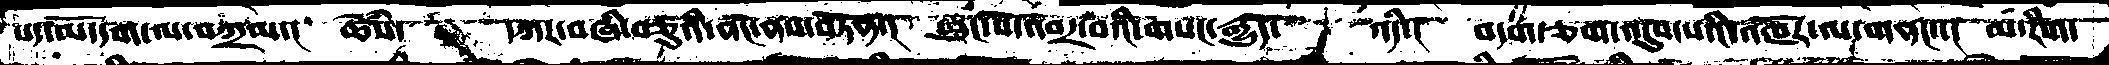པད་མོ་དག་ལ་བཀྲམ་།  ཚེསཾ་   དཀར་བཞི་བཅུའི་ནང་ནས་བཏོན་།  ཕུང་པོ་འབར་བའི་གསང་རྒྱུད་    འདི་།  བདག་ཅག་འདུས་པའི་འཁོར་ལ་གནང་་།  མ་རིག་
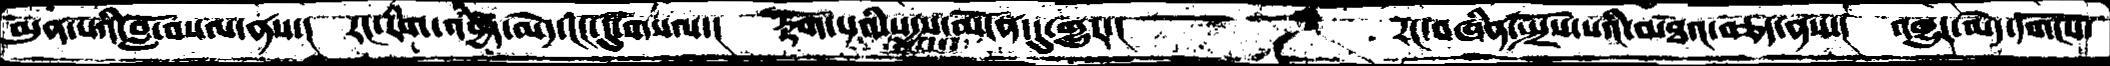མུན་པའི་བློ་བསལ་ནས་།  རང་རིག་དབྱེར་མེད་ངང་དུ་གསལ་།  རྟོག་པའི་སདྱས་མངོན་དུ་གྱུར་།          རང་བཞིན་སྤྲོས་པའི་མཐའ་བཅད་ནས་།  འགྱུར་མེད་དགོངས་
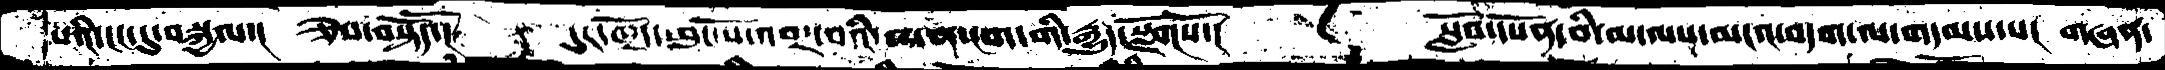པའི་ངང་དུ་བསྐྱལ་།  ཅེས་བསྟོདོ་།    དུར་ཁྲོད་ཕུང་པོ་འབར་བའི་མན་ངག་གི་རྒྱུད་སྫོགསོ་།         སློབ་དཔོན་བི་མ་ལས་མངའ་བདག་ལ་གདམས་པ་།  གཞན་
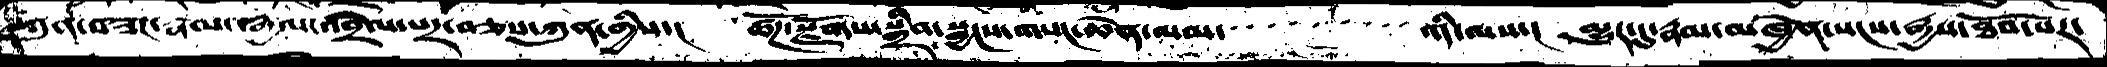ཀུན་བཟང་རྣམ་རྒྱལ་འབྲེལ་པར་བཅས་ཀུན་གྱིས་།  ཚོཌ་སྫོགས་སྒྲིབ་སྦྱངས་གསང་ཆེན་ལམ་             འདི་ལས་།  མྱུར་དུ་རྣམ་མཁྱེན་སངས་རྒྱས་ཐོབ་པར་
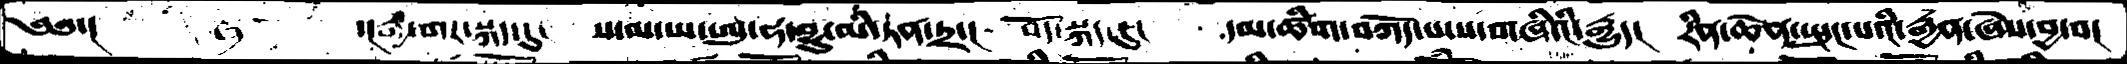༄༅་།      ་།རྒྱ་གར་སྐད་དུ་    ས་མ་ཡ་ཨུ་ཧ་བྷུ་མི་ཏན་ཏྲ་།  བོད་སྐད་དུ།  དམ་ཚིག་བཀོད་པ་ས་གཞིའི་རྒྱུད། རིན་ཆེན་སྤུང་པའི་རྒྱན་ཞེས་བྱ་བ།
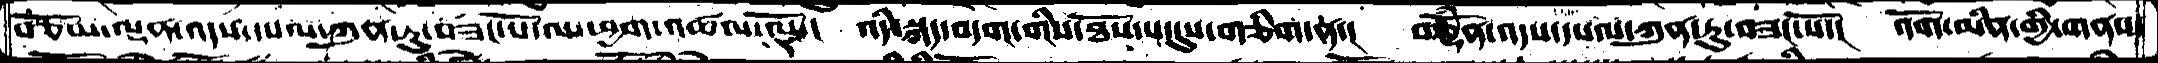བཅོམ་ལྡན་འདས་དཔལ་ཀུན་ཏུ་བཟང་པོ་ལ་ཕྱག་འཚལ་ལོ་།   འདི་སྐད་བདག་གིས་ཐོས་པ་དུས་གཅིག་ན་།  བཅྡོཾན་འདས་དཔལ་ཀུན་ཏུ་བཟང་པོ་།  འོག་མིན་གྱི་གནས་
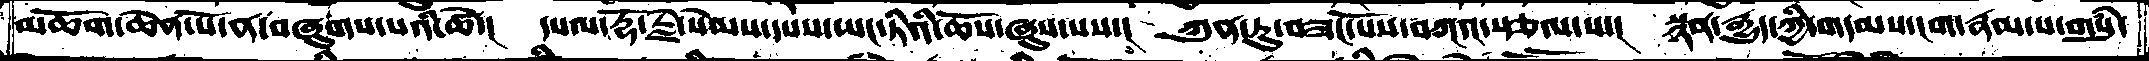མཆོག་ཆེན་པོ་ན་བཞུགས་པའི་ཚེ་།   དཔལ་རྡོ་རྗེ་སེམས་དཔས་ཡང་ཏིའི་ཆོས་ཞུས་པས་།   ཀུན་ཏུ་བཟང་པོས་བཀའ་སྩལ་པ་།   སྙན་རྒྱུད་ཀྱི་གདམས་ངག་རྣམ་པ་གསུཾ་
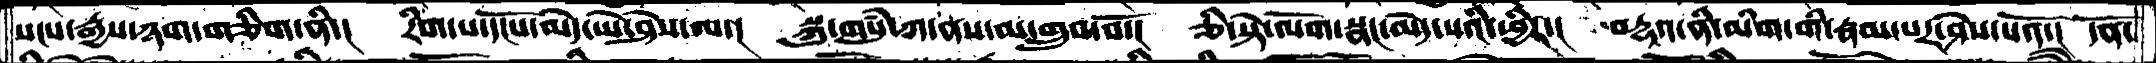སངས་རྒྱས་ཉག་གཅིག་ནི་།  རིག་པ་དངོས་མེད་ཡེ་ཤེས་ལ་།  སྐུ་གསུཾ་ཀ་ནས་མ་གྲུབ་བོ་།  ཅི་སྟེ་ལོག་སྣང་མེད་པའི་ཕྱིར་།  བརྡའ་ནི་མིག་གི་རྣམ་པར་ཤེས་པའོ་།  དོན་
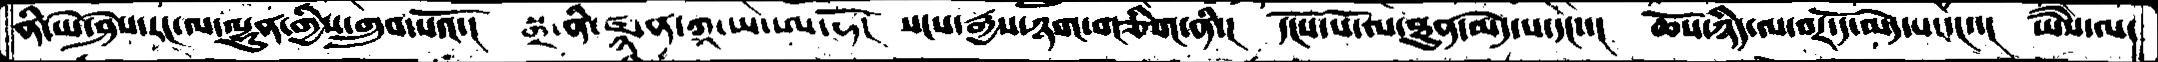ནི་ཡེ་ཤེས་རང་ལ་ལྷུན་གྱིས་གྲུབ་པའོ་།  སྒྲ་ནི་ཛྙཱ་ན་ཀཱ་ཡ་ཨ་ཧོ།  སངས་རྒྱས་ཉག་གཅིག་ནི་།  དངོས་པོ་ལ་ཐུན་མེད་པ་དང་་།  ཆོས་ཉིད་ལ་བར་དོ་མེད་པ་དང་་།  ཡཻས་ལ་
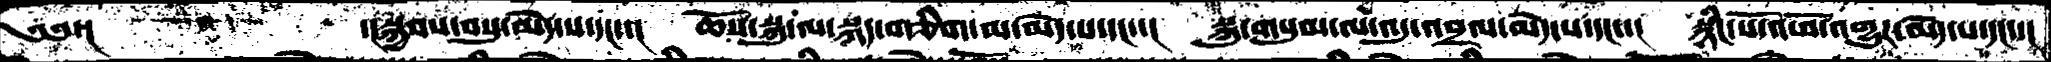༄༅་།     ་།སྐྱབས་བསུ་མེད་པ་དང་་།  ཆོས་སྐུ་ལ་སྐད་གཅིག་མ་མེད་པ་དང་་།  སྐུ་གསུམ་ལ་འདུ་འབྲལ་མེད་པ་དང་་།  སྙིང་པོ་འཕོ་འགྱུར་མེད་པ་དདང་་།
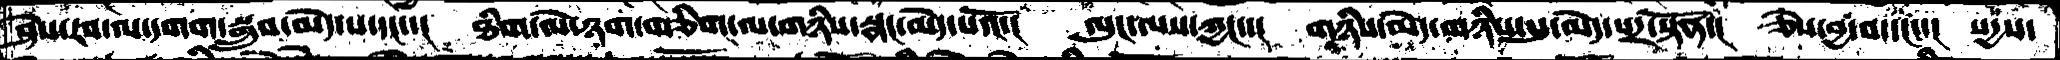ཤེས་རབ་ལ་དགག་སྒྲུབ་མེད་པ་དང་་།  ཐིག་་ལེ་ཉག་གཅིག་ལ་གཉིས་སྣང་མེད་པའོ་།  ལུང་ལས་ཀྱང་་།  གཉིས་མེད་གཉིས་སུ་མེད་པར་སྟོན་།  ཅེས་བྱ་བ་དང་་།  སདྱས་
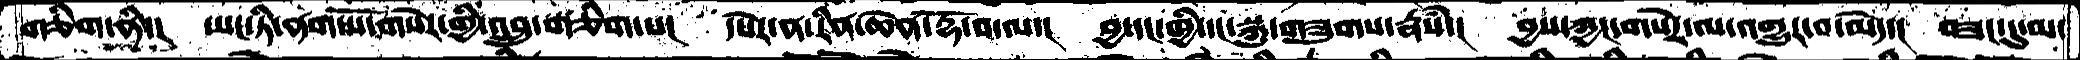གཅིག་ནི་།  ཡང་ཏི་ནག་པོ་གསེར་གྱི་འབྲུ་གཅིག་པ་།  དཔེར་ན་རིན་ཆེན་རྡོ་བ་ལ་།  བྱ་དང་ཁྱི་དང་སྐུ་གཟུགས་རྣཾས་།  བྱས་ཀྱང་གསེར་ལ་འགྱུར་བ་མེད་།  བཟང་དུ་མ་
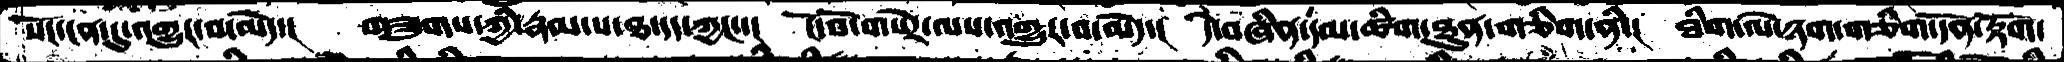སོང་ངན་དུ་འགྱུར་བ་མེད་།  གཟུགས་ཀྱི་རྣམ་པ་ཐ་དད་ཀྱང་་།  ངོ་བོ་གསེར་ལས་འགྱུར་བ་མེད་།  དེ་བཞིན་དམ་ཚིག་ཐུན་གཅིག་ནི་།  ཐིག་ལེ་ཉག་གཅིག་དོན་རྟོག་
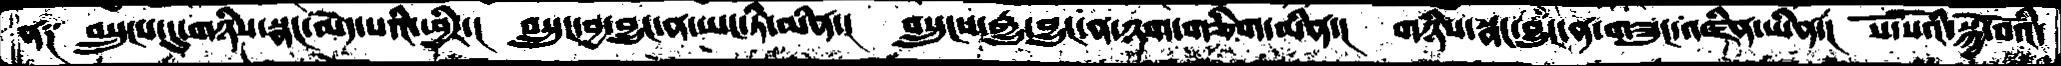ན༑  བསྲུངས་དུ་གཉིས་སྣང་མེད་པའི་ཕྱིར་།  བསྲུང་བྱ་བྱུང་ན་ཡང་ཏི་མིན་།  བསྲུངས་རྒྱུ་བྱུང་ན་ཉག་གཅིག་མིན་།  གཉིས་སྣང་བྱུང་ན་གཟུང་འཛིན་ཡིན་།  སོ་སོའི་སྐྱེ་བོའི་
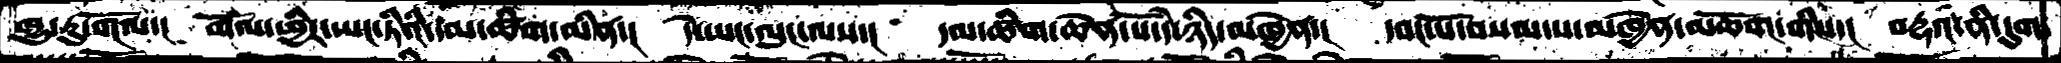ཁྱུ་རུ་གོལ་།  གོལ་ཕྱིར་ཡང་ཏིའི་དམ་ཚིག་མིན་།  དེེ་ཡང་ལུང་ལས་།  དམ་ཚིག་ཆེན་པོ་དེ་ཉིད་མཁྱེན་།  དབང་པོ་བསམ་པ་མཁྱྲེན་མཆོག་གིས་།  བརྡའ་ནི་དུག་
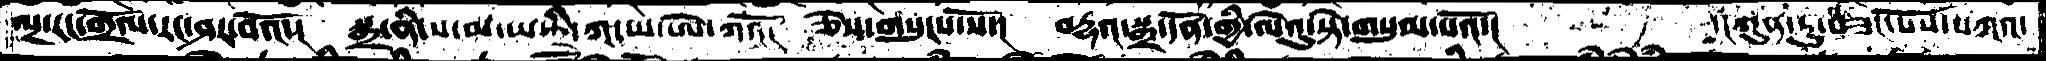ལྔ་རང་གྲོལ་རང་ཤར་བའོ་།  སྒྲ་ནི་ས་མ་ཡ་ཏྲི་ཀ་ཨེ་ཀའོ།  ཅེས་གསུངས་སོ་།  བརྡའ་སྒྲ་དོན་གྱི་ལེའུ་སྟེ་གསུམ་པའོ་།       ་།ཀུན་ཏུ་བཟང་པོས་བཀའ་
